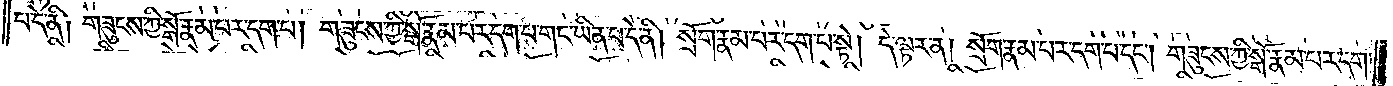པ་དེ་ནི༑ གཟུངས་ཀྱི་སྒོ་རྣམ་པར་དག་པ། གཟུགས་ཀྱི་སྒོ་རྣམ་པར་དག་པ་གང་ཡིན་པ་དེ་ནི། སྲོག་རྣམ་པར་དག་པ་སྟེ། དེ་ལྟར་ན། སྲོག་རྣམ་པར་དག་པ་དང༌། གཟུངས་ཀྱི་སྒོ་རྣམ་པར་དག་
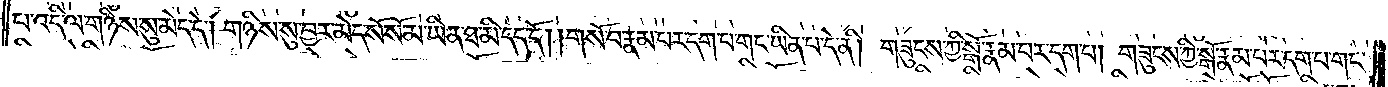པ་འདི་ལ་གཉིས་མེད་དེ། གཉིས་སུ་བྱར་མེད་སོ་སོ་མ་ཡིན་ཐ་མི་དད་དོ། །གསོ་བ་རྣམ་པར་དག་པ་གང་ཡིན་པ་དེ་ནི། གཟུངས་ཀྱི་སྒོ་རྣམ་པར་དག་པ། གཟུངས་ཀྱི་སྒོ་རྣམ་པར་དག་པ་གང་
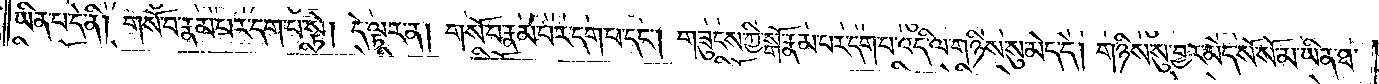ཡིན་པ་དེ་ནི། གསོ་བ་རྣམ་པར་དག་པ་སྟེ། དེ་ལྟར་ན། གསོ་བ་རྣམ་པར་དག་པ་དང༌། གཟུངས་ཀྱི་སྒོ་རྣམ་པར་དག་པ་འདི་ལ་གཉིས་སུ་མེད་དེ། གཉིས་སུ་བྱར་མེད་སོ་སོ་མ་ཡིན་ཐ་
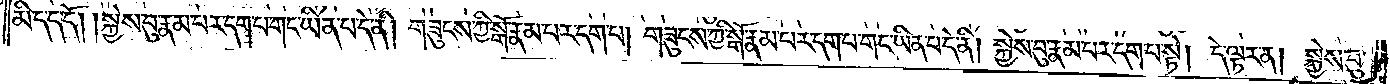མི་དད་དོ། །སྐྱེས་བུ་རྣམ་པར་དག་པ་གང་ཡིན་པ་དེ་ནི། གཟུངས་ཀྱི་སྒོ་རྣམ་པར་དག་པ། གཟུངས་ཀྱི་སྒོ་རྣམ་པར་དག་པ་གང་ཡིན་པ་དེ་ནི། སྐྱེས་བུ་རྣམ་པར་དག་པ་སྟེ། དེ་ལྟར་ན། སྐྱེས་བུ་
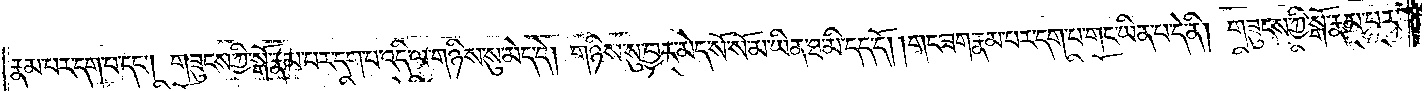རྣམ་པར་དག་པ་དང༌། གཟུངས་ཀྱི་སྒོ་རྣམ་པར་དག་པ་འདི་ལ་གཉིས་སུ་མེད་དེ། གཉིས་སུ་བྱར་མེད་སོ་སོ་མ་ཡིན་ཐ་མི་དད་དོ། །གང་ཟག་རྣམ་པར་དག་པ་གང་ཡིན་པ་དེ་ནི། གཟུངས་ཀྱི་སྒོ་རྣམ་པར་
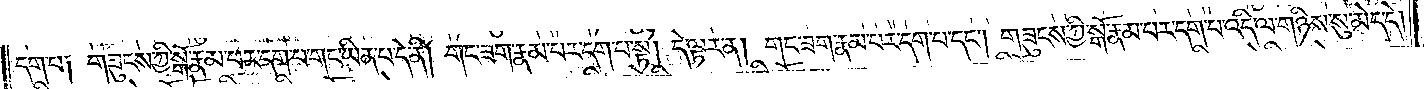དག་པ། གཟུངས་ཀྱི་སྒོ་རྣམ་པར་དག་པ་གང་ཡིན་པ་དེ་ནི། གང་ཟག་རྣམ་པར་དག་པ་སྟེ། དེ་ལྟར་ན། གང་ཟག་རྣམ་པར་དག་པ་དང༌། གཟུངས་ཀྱི་སྒོ་རྣམ་པར་དག་པ་འདི་ལ་གཉིས་སུ་མེད་དེ།
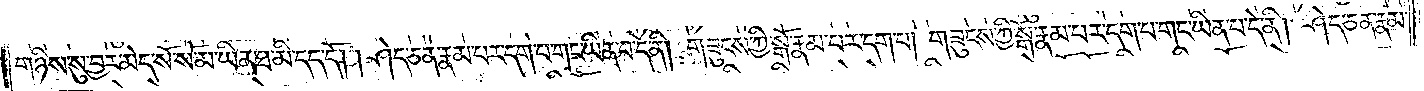གཉིས་སུ་བྱར་མེད་སོ་སོ་མ་ཡིན་ཐ་མི་དད་དོ། །ཤེད་ཅན་རྣམ་པར་དག་པ་གང་ཡིན་པ་དེ་ནི། གཟུངས་ཀྱི་སྒོ་རྣམ་པར་དག་པ། གཟུངས་ཀྱི་སྒོ་རྣམ་པར་དག་པ་གང་ཡིན་པ་དེ་ནི། ཤེད་ཅན་རྣམ་
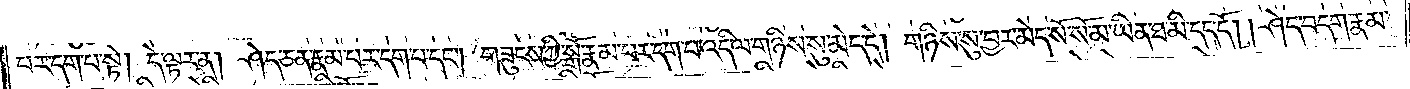པར་དག་པ་སྟེ། དེ་ལྟར་ན། ཤེད་ཅན་རྣམ་པར་དག་པ་དང༌། གཟུངས་ཀྱི་སྒོ་རྣམ་པར་དག་པ་འདི་ལ་གཉིས་མེད་དེ། གཉིས་སུ་བྱར་མེད་སོ་སོ་མ་ཡིན་ཐ་མི་དད་དོ། །ཤེད་བདག་རྣམ་
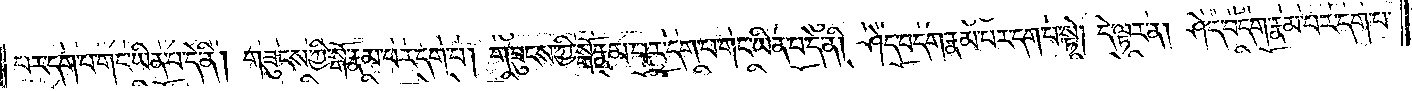པར་དག་པ་གང་ཡིན་པ་དེ་ནི། གཟུངས་ཀྱི་སྒོ་རྣམ་པར་དག་པ། གཟུགས་ཀྱི་སྒོ་རྣམ་པར་དག་པ་གང་ཡིན་པ་དེ་ནི། ཤེད་བདག་རྣམ་པར་དག་པ་སྟེ། དེ་ལྟར་ན། ཤེད་བདག་རྣམ་པར་དག་པ་
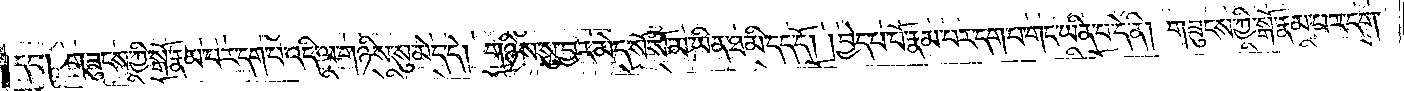དང༌། གཟུངས་ཀྱི་སྒོ་རྣམ་པར་དག་པ་འདི་ལ་གཉིས་སུ་མེད་དེ། གཉིས་སུ་བྱར་མེད་སོ་སོ་མ་ཡིན་ཐ་མི་དད་དོ། །བྱེད་པ་པོ་རྣམ་པར་དག་པ་གང་ཡིན་པ་དེ་ནི། གཟུངས་ཀྱི་སྒོ་རྣམ་པར་དག་
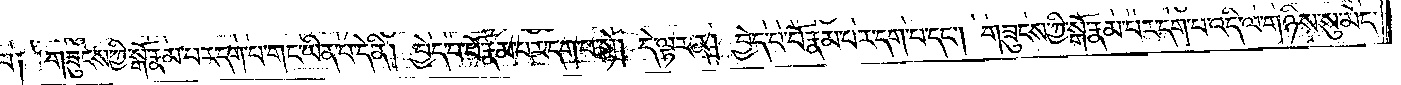པ། གཟུངས་ཀྱི་སྒོ་རྣམ་པར་དག་པ་གང་ཡིན་པ་དེ་ནི། བྱེད་པ་པོ་རྣམ་པར་དག་པ་སྟེ། དེ་ལྟར་ན། བྱེད་པ་པོ་རྣམ་པར་དག་པ་དང༌། གཟུངས་ཀྱི་སྒོ་རྣམ་པར་དག་པ་འདི་ལ་གཉིས་སུ་མེད་
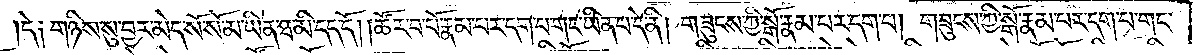དེ། གཉིས་སུ་བྱར་མེད་སོ་སོ་མ་ཡིན་ཐ་མི་དད་དོ། །ཚོར་བ་པོ་རྣམ་པར་དག་པ་གང་ཡིན་པ་དེ་ནི། གཟུངས་ཀྱི་སྒོ་རྣམ་པར་དག་པ་དང༌། གཟུངས་ཀྱི་སྒོ་རྣམ་པར་དག་པ་གང་
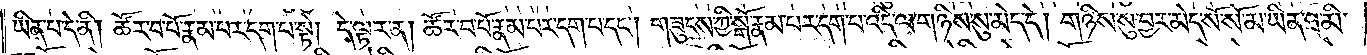ཡིན་པ་དེ་ནི། ཚོར་བ་པོ་རྣམ་པར་དག་པ་སྟེ། དེ་ལྟར་ན། ཚོར་བ་པོ་རྣམ་པར་དག་པ་དང༌། གཟུངས་ཀྱི་སྒོ་རྣམ་པར་དག་པ་འདི་ལ་གཉིས་སུ་མེད་དེ། གཉིས་སུ་བྱར་མེད་སོ་སོ་མ་ཡིན་ཐ་མི་
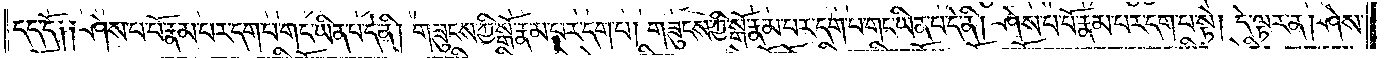དད་དོ། །ཤེས་པ་པོ་རྣམ་པར་དག་པ་གང་ཡིན་པ་དེ་ནི། གཟུངས་ཀྱི་སྒོ་རྣམ་པར་དག་པ། གཟུངས་ཀྱི་སྒོ་རྣམ་པར་དག་པ་གང་ཡིན་པ་དེ་ནི། ཤེས་པ་པོ་རྣམ་པར་དག་པ་སྟེ། དེ་ལྟར་ན། ཤེས་
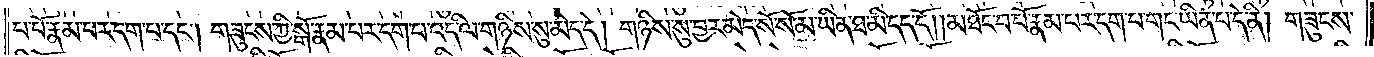པ་པོ་རྣམ་པར་དག་པ་དང༌། གཟུངས་ཀྱི་སྒོ་རྣམ་པར་དག་འདི་ལ་གཉིས་མེད་དེ། གཉིས་སུ་བྱར་མེད་སོ་སོ་མ་ཡིན་ཐ་མི་དད་དོ། །མཐོང་བ་པོ་རྣམ་པར་དག་པ་གང་ཡིན་པ་དེ་ནི། གཟུངས་
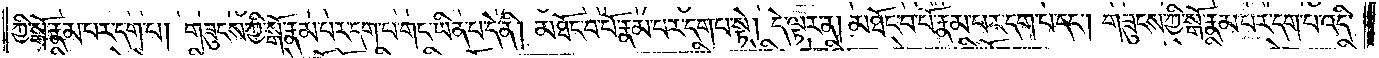ཀྱི་སྒོ་རྣམ་པར་དག་པ། གཟུངས་ཀྱི་སྒོ་རྣམ་པར་དག་པ་གང་ཡིན་པ་དེ་ནི། མཐོང་བ་པོ་རྣམ་པར་དག་པ་སྟེ། དེ་ལྟར་ན། མཐོང་བ་པོ་རྣམ་པར་དག་པ་དང༌། གཟུགས་ཀྱི་སྒོ་རྣམ་པར་དག་པ་འདི་
